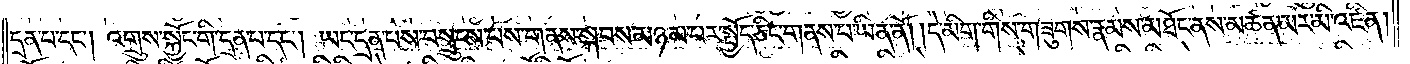དྲན་པ་དང༌། འགྲུས་སྐྱོང་གི་དྲན་པ་དང༌། ཡང་དྲན་པས་བསྲུངས་པས་གནས་སྐབས་མཉམ་པར་སྤྱོད་ཅིང་གནས་པ་ཡིན་ནོ། །དེ་མིག་གིས་གཟུགས་རྣམས་མཐོང་ནས་མཚན་མར་མི་འཛིན།
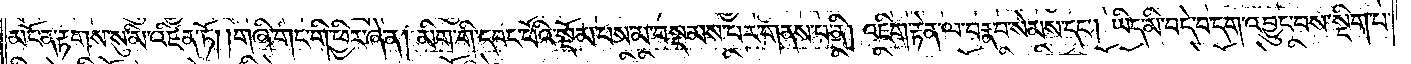མངོན་རྟགས་སུ་མི་འཛིན་ཏོ། །གཞི་གང་གི་ཕྱིར་ཞེ་ན། མིག་གི་དབང་པོའི་སྡོམ་པས་མ་བསྡམས་པར་གནས་པ་ནི། འཇིག་རྟེན་ལ་བརྣབ་སེམས་དང༌། ཡིད་མི་བདེ་བ་དག་འབྱུང་བས་སྡིག་པ་
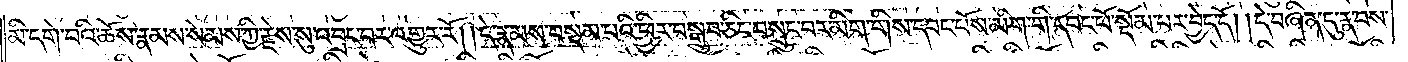མི་དགེ་བའི་ཆོས་རྣམས་སེམས་ཀྱི་རྗེས་སུ་འབྲང་བར་འགྱུར་རོ། །དེ་རྣམས་བསྡམ་པའི་ཕྱིར་བསྒྲུབ་ཅིང་བསྲུང་བར་མིག་གིས་དབང་པོས་མིག་གི་དབང་པོ་སྡོམ་པར་བྱེད་དོ། །དེ་བཞིན་དུ་རྣ་བས་
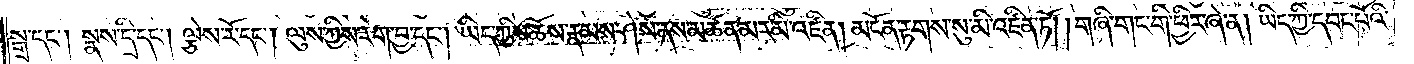སྒྲ་དང༌། སྣམ་དྲི་དང༌། ལྕེས་རོ་དང༌། ལུས་ཀྱིས་རེག་བྱ་དང༌། ཡིད་ཀྱིས་ཆོས་རྣམས་ཤེས་ནས་མཚན་མར་མི་འཛིན། མངོན་རྟགས་སུ་མི་འཛིན་ཏོ། །གཞི་གང་གི་ཕྱིར་ཞེ་ན། ཡིད་ཀྱི་དབང་པོའི་
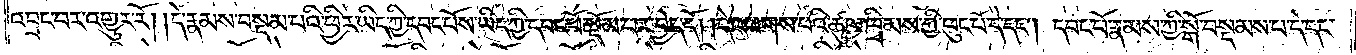འབྲང་བར་འགྱུར་རོ། །དེ་རྣམས་བསྡམ་པའི་ཕྱིར་ཡིད་ཀྱི་དབང་པོས་ཡིད་ཀྱི་དབང་པོ་སྡོམ་པར་བྱེད་དོ། །དེ་འཕགས་པའི་ཚུལ་ཁྲིམས་ཀྱི་ཕུང་པོ་དེ་དང༌། དབང་པོ་རྣམས་ཀྱི་སྒོ་བསྡམས་པ་དེ་དང་
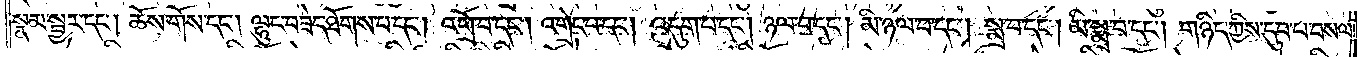སྣམ་སྦྱར་དང༌། ཆོས་གོས་དང༌། ལྷུང་བཟེད་ཐོགས་པ་དང༌། འགྲོ་བ་དང༌། འགྲེང་བ་དང༌། འདུག་པ་དང༌། ཉལ་བ་དང༌། མི་ཉལ་བ་དང༌། སྨྲ་བ་དང༌། མི་སྨྲ་བ་དང༌། གཉིད་ཀྱིས་དུབ་པ་བསལ་
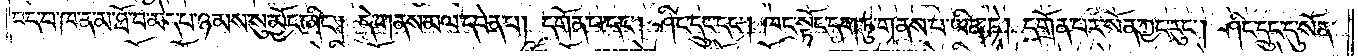བདེ་བ་ཁ་ན་མ་ཐོ་བ་མེད་པ་ཉམས་སུ་མྱོང་ཞིང༌། དེ་གནས་མལ་དབེན་པ། དགོན་པ་དང༌། ཤིང་དྲུང་དང༌། ཁང་སྟོང་དག་ཏུ་གནས་པ་ཡིན་ཏེ། དགོན་པར་སོན་ཀྱང་རུང༌། ཤིང་དྲུང་དུ་སོན་
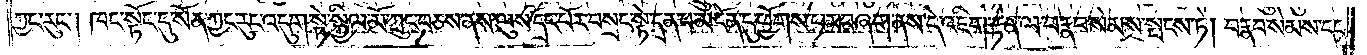ཀྱང་རུང༌། ཁང་སྟོང་དུ་སོན་ཀྱང་རུང་འདུག་སྟེ་སྐྱིལ་མོ་ཀྲུང་བཅས་ནས་ལུས་དྲུང་བོར་བསྲང་སྟེ་དྲན་པ་མངོན་དུ་ཕྱོགས་པར་བཞག་ནས་དེ་འཇིག་རྟེན་ལ་བརྣབ་སེམས་སྤངས་ཏེ། བརྣབ་སེམས་དང་
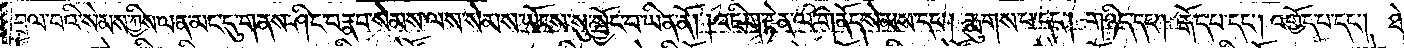བྲལ་བའི་སེམས་ཀྱིས་ལན་མང་དུ་གནས་ཤིང་བརྣབ་སེམས་ལས་སེམས་ཡོངས་སུ་སྦྱོང་བ་ཡིན་ནོ། །འཇིག་རྟེན་ལ་གནོད་སེམས་དང༌། རྨུགས་པ་དང༌། གཉིད་དང༌། རྒོད་པ་དང༌། འགྱོད་པ་དང༌། ཐེ་
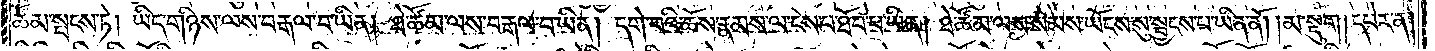ཚོམ་སྤངས་ཏེ། ཡིད་གཉིས་ལས་བརྒལ་པ་ཡིན། ཐེ་ཚོམ་ལས་བརྒལ་བ་ཡིན། །དགེ་བའི་ཆོས་རྣམས་ལས་ངེས་པ་ཐོབ་པ་ཡིན། ཐེ་ཚོམ་ལས་སེམས་ཡོངས་སུ་སྦྱངས་བ་ཡིན་ནོ། །མ་སྡུག །དཔེར་ན།
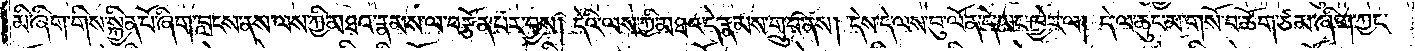མི་ཞིག་གིས་སྐྱིན་པོ་ཞིག་བླངས་ནས་ལས་ཀྱི་མཐའ་རྣམས་ལ་བརྩོན་པར་བྱས། དེའི་ལས་ཀྱི་མཐའ་དེ་རྣམས་གྲུབ་ནས། དེས་དེ་ལས་བུ་ལོན་དེ་ཡང་ཁྱེར་ལ། དེ་ལ་ཆུང་མ་གསོ་བ་ཆོག་ཙམ་ཞིག་ཀྱང་
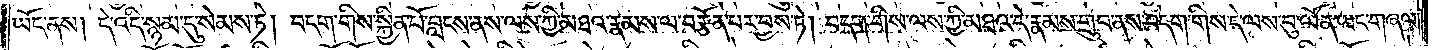ཡོད་ནས། དེ་འདི་སྙམ་དུ་སེམས་ཏེ། བདག་གིས་སྐྱིན་པོ་བླངས་ནས་ལས་ཀྱི་མཐའ་རྣམས་ལ་བརྩོན་པར་བྱས་ཏེ། བདག་གིས་ལས་ཀྱི་མཐའ་དེ་རྣམས་གྲུབ་ནས་བདག་གིས་དེ་ལས་བུ་ལོན་ཡང་གཞལ་
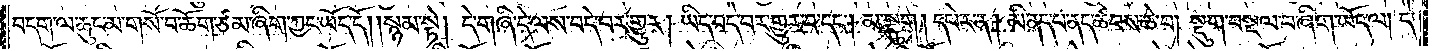བདག་ལ་ཆུང་མ་གསོ་བ་ཆོག་ཙམ་ཞིག་ཀྱང་ཡོད་དོ། །སྙམ་སྟེ། དེ་གཞི་དེ་ལས་བདེ་བར་གྱུར། ཡིད་བདེ་བར་གྱུར་བ་དང༌། མ་སྡུག །དཔེར་ན། མི་ནད་པ་ནད་ཚབས་ཆེ་བ། སྡུག་བསྔལ་བ་ཞིག་ཡོད་ལ། དེ་
